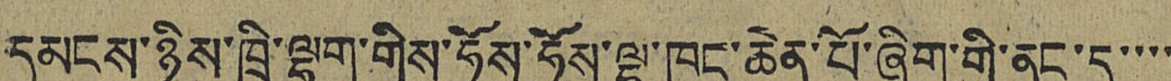དམངས་ཉིས་ཁྲི་ལྷག་གིས་ཧོས་ཧོས་ལྷ་ཁང་ཆེན་པོ་ཞིག་གི་ནང་དུ་་་་
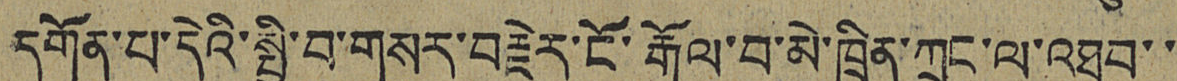དགོན་པ་དེའི་སྤྱི་བ་གསར་བརྗེར་ངོ་རྒོལ་བ་མེ་ཁྲིན་ཀྲང་ལ་འཐབ་་
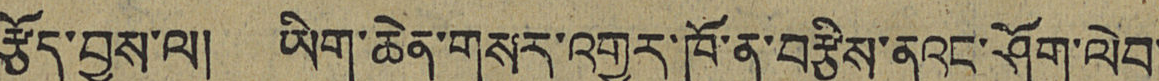རྩོད་བྱས་ལ། ཡིག་ཆེན་གསར་འགྱུར་ཁོ་ན་བརྩིས་ནའང་ཤོག་ལེབ་
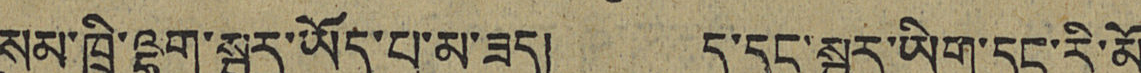སུམ་ཁྲི་ལྷག་སྦྱར་ཡོད་པ་མ་ཟད། ད་དུང་སྦྱར་ཡིག་དང་རི་མོ་
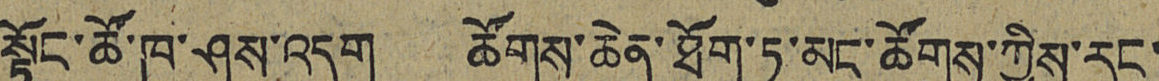སྟོང་ཚོ་ཁ་ཤས་འདུག ཚོགས་ཆེན་ཐོག་ཏུ་མང་ཚོགས་ཀྱིས་རང་
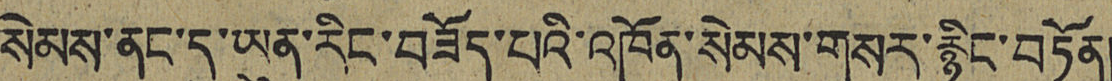སེམས་ནང་དུ་ཡུན་རིང་བཟོད་པའི་འཁོན་སེམས་གསར་རྙིང་བཏོན།
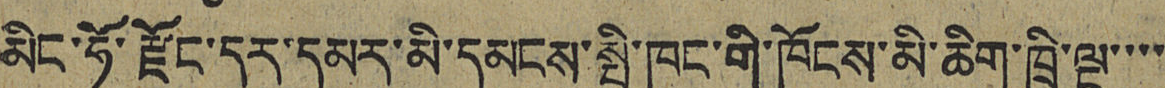མིང་ཧོ་རྫོང་དར་དམར་མི་དམངས་སྤྱི་ཁང་གི་ཁོངས་མི་ཆིག་ཁྲི་ལྔ་་་་
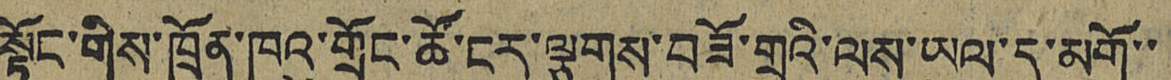སྟོང་གིས་ཁྲོན་ཁུའུ་གྲོང་ཚོ་ངར་ལྕགས་བཟོ་གྲྭའི་ལས་ཡུལ་དུ་མགོ་་
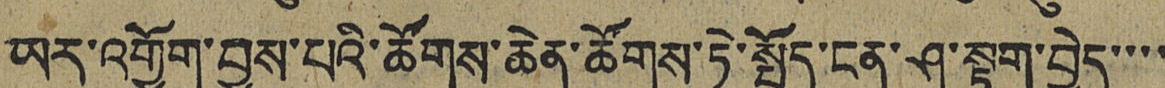ཡར་འགྱོག་བྱས་པའི་ཚོགས་ཆེན་ཚོགས་ཏེ་སྤྱོད་ངན་ཤ་སྟག་བྱེད་་་་
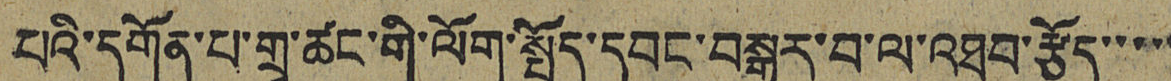པའི་དགོན་པ་གྲྭ་ཚང་གི་ལོག་སྤྱོད་དབང་བསྒྱུར་བ་ལ་འཐབ་རྩོད་་་་་
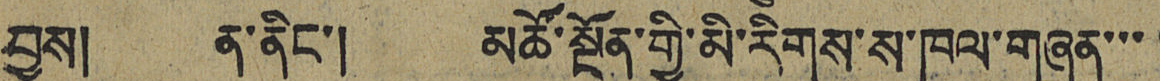བྱས། ན་ནིང་། མཚོ་སྔོན་གྱི་མི་རིགས་ས་ཁུལ་གཞན་་་་
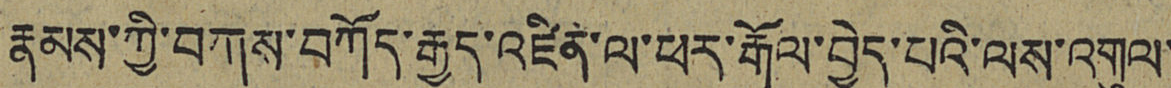རྣམས་ཀྱི་བཀས་བཀོད་རྒྱུད་འཛིན་ལ་ཕར་རྒོལ་བྱེད་པའི་ལས་འགུལ་
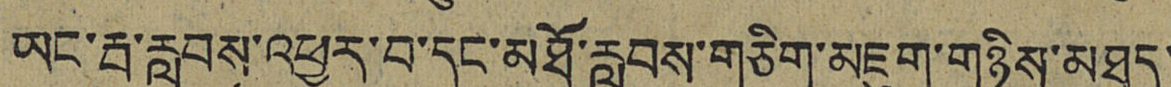ཡང་རྦ་རླབས་འཕྱུར་བ་དང་མཐོ་རླབས་གཅིག་མཇུག་གཉིས་མཐུད་
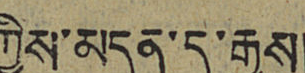ཀྱིས་མདུན་དུ་རྒྱས།
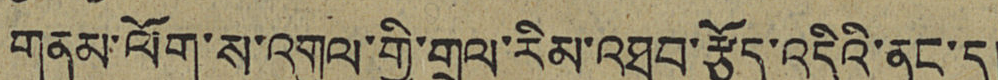གནམ་ལོག་ས་འགུལ་གྱི་གྲལ་རིམ་འཐབ་རྩོད་འདིའི་ནང་དུ།
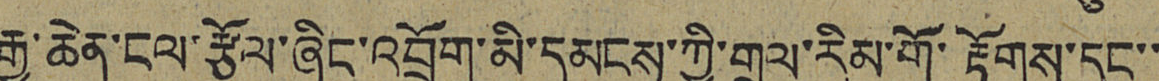རྒྱ་ཆེན་ངལ་རྩོལ་ཞིང་འབྲོག་མི་དམངས་ཀྱི་གྲལ་རིམ་གོ་རྟོགས་དང་་
